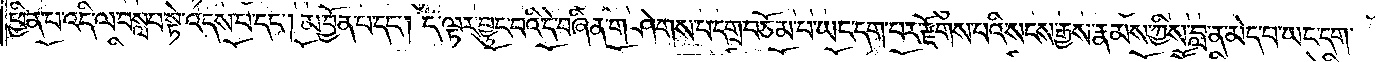ཕྱིན་པ་འདི་ལ་བསླབ་སྟེ་འདས་པ་དང༌། མ་བྱོན་པ་དང༌། ད་ལྟར་བྱུང་བའི་དེ་བཞིན་གཤེགས་པ་དགྲ་བཅོམ་པ་ཡང་དག་པར་རྫོགས་པའི་སངས་རྒྱས་རྣམས་ཀྱིས་བླ་ན་མེད་པ་ཡང་དག་
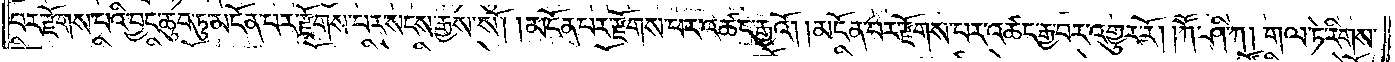པར་རྫོགས་པའི་བྱང་ཆུབ་ཏུ་མངོན་པར་རྫོགས་པར་སངས་རྒྱས་སོ། །མངོན་པར་རྫོགས་པར་འཚང་རྒྱའོ། །མངོན་པར་རྫོགས་པར་འཚང་རྒྱ་བར་འགྱུར་རོ། །ཀཽ་ཤི་ཀ། གལ་ཏེ་རིགས་
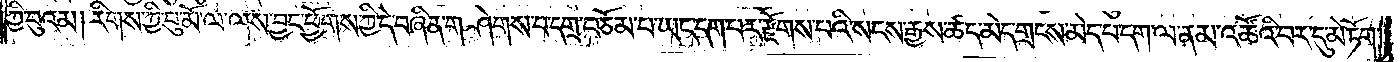ཀྱི་བུའམ། རིགས་ཀྱི་བུ་མོ་ལ་ལས་བྱང་ཕྱོགས་ཀྱི་དེ་བཞིན་གཤེགས་པ་དགྲ་བཅོམ་པ་ཡང་དག་པར་རྫོགས་པའི་སངས་རྒྱས་ཚད་མེད་གྲངས་མེད་པ་དག་ལ་ནམ་འཚོའི་བར་དུ་མེ་ཏོག་
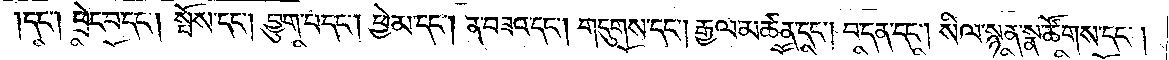དང༌། ཕྲེང་བ་དང༌། སྤོས་དང༌། བྱུག་པ་དང༌། ཕྱེ་མ་དང༌། ན་བཟའ་དང༌། གདུགས་དང༌། རྒྱལ་མཚན་དང༌། བ་དན་དང༌། སིལ་སྙན་སྣ་ཚོགས་དང༌།
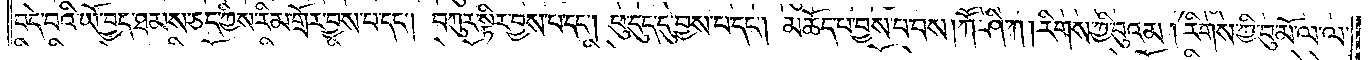བདེ་བའི་ཡོ་བྱད་ཐམས་ཅད་ཀྱིས་རིམ་གྲོར་བྱས་པ་དང༌། བཀུར་སྟིར་བྱས་པ་དང༌། ཕུ་དུད་དུ་བྱས་པ་དང༌། མཆོད་པ་བྱས་པ་བས། ཀཽ་ཤི་ཀ། རིགས་ཀྱི་བུའམ། རིགས་ཀྱི་བུ་མོ་ལ་ལ་
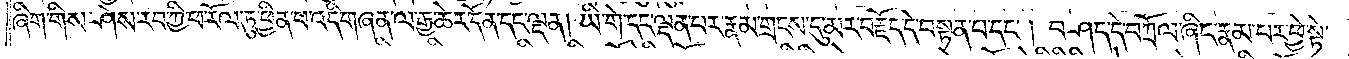ཞིག་གིས་ཤེས་རབ་ཀྱི་ཕ་རོལ་ཏུ་ཕྱིན་པ་འདི་གཞན་ལ་རྒྱ་ཆེར་དོན་དང་ལྡན། ཡི་གེ་དང་ལྡན་པར་རྣམ་གྲངས་དུ་མར་བརྗོད་དེ་བསྟན་པ་དང༌། བཤད་དེ་བཀྲོལ་ཞིང་རྣམ་པར་ཕྱེ་སྟེ་
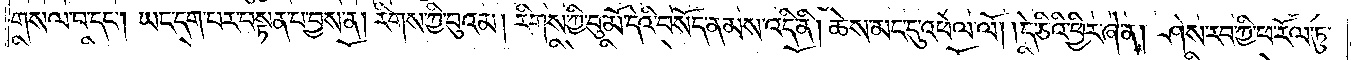གསལ་བ་དང༌། ཡང་དག་པར་བསྟན་པ་བྱས་ན། རིགས་ཀྱི་བུའམ། རིགས་ཀྱི་བུ་མོ་དེའི་བསོད་ནམས་འདི་ནི། ཆེས་མང་དུ་འཕེལ་ལོ། །དེ་ཅིའི་ཕྱིར་ཞེ་ན། ཤེས་རབ་ཀྱི་ཕ་རོལ་ཏུ་
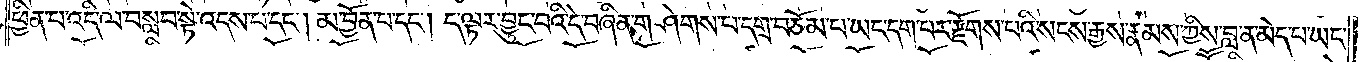ཕྱིན་པ་འདི་ལ་བསླབ་སྟེ་འདས་པ་དང༌། མ་བྱོན་པ་དང༌། ད་ལྟར་བྱུང་བའི་དེ་བཞིན་གཤེགས་པ་དགྲ་བཅོམ་པ་ཡང་དག་པར་རྫོགས་པའི་སངས་རྒྱས་རྣམས་ཀྱིས་བླ་ན་མེད་པ་ཡང་
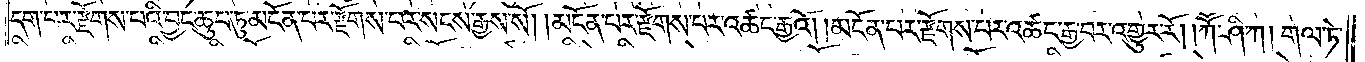དག་པར་རྫོགས་པའི་བྱང་ཆུབ་ཏུ་མངོན་པར་རྫོགས་པར་སངས་རྒྱས་སོ། །མངོན་པར་རྫོགས་པར་འཚང་རྒྱའོ། །མངོན་པར་རྫོགས་པར་འཚང་རྒྱ་བར་འགྱུར་རོ། །ཀཽ་ཤི་ཀ། གལ་ཏེ་
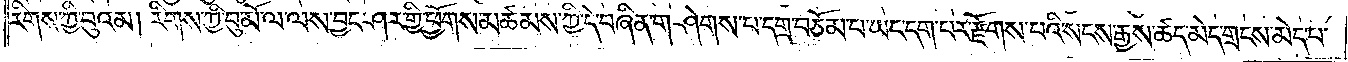རིགས་ཀྱི་བུའམ། རིགས་ཀྱི་བུ་མོ་ལ་ལས་བྱང་ཤར་གྱི་ཕྱོགས་མཚམས་ཀྱི་དེ་བཞིན་གཤེགས་པ་དགྲ་བཅོམ་པ་ཡང་དག་པར་རྫོགས་པའི་སངས་རྒྱས་ཚད་མེད་གྲངས་མེད་པ་
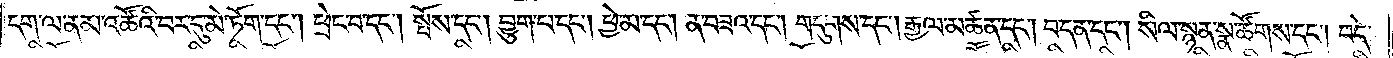དག་ལ་ནམ་འཚོའི་བར་དུ་མེ་ཏོག་དང༌། ཕྲེང་བ་དང༌། སྤོས་དང༌། བྱུག་པ་དང༌། ཕྱེ་མ་དང༌། ན་བཟའ་དང༌། གདུགས་དང༌། རྒྱལ་མཚན་དང༌། བ་དན་དང༌། སིལ་སྙན་སྣ་ཚོགས་དང༌། བདེ་
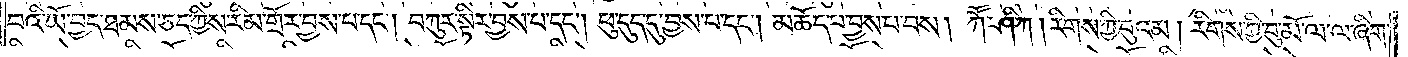བའི་ཡོ་བྱད་ཐམས་ཅད་ཀྱིས་རིམ་གྲོར་བྱས་པ་དང༌། བཀུར་སྟིར་བྱས་པ་དང༌། ཕུ་དུད་དུ་བྱས་པ་དང༌། མཆོད་པ་བྱས་པ་པས། །ཀཽ་ཤི་ཀ། རིགས་ཀྱི་བུའམ། རིགས་ཀྱི་བུ་མོ་ལ་ལ་ཞིག་
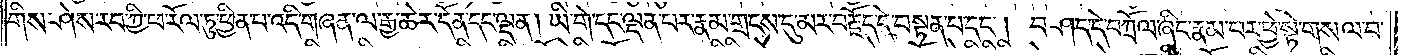གིས་ཤེས་རབ་ཀྱི་ཕ་རོལ་ཏུ་ཕྱིན་པ་འདི་གཞན་ལ་རྒྱ་ཆེར་དོན་དང་ལྡན། ཡི་གེ་དང་ལྡན་པར་རྣམ་གྲངས་དུ་མར་བརྗོད་དེ་བསྟན་པ་དང༌། བཤད་དེ་བཀྲོལ་ཞིང་རྣམ་པར་ཕྱེ་སྟེ་གསལ་བ་
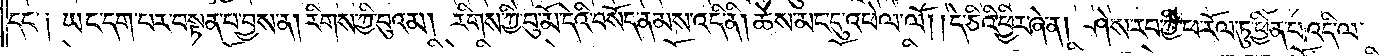དང་༑ ཡང་དག་པར་བསྟན་པ་བྱས་ན། རིགས་ཀྱི་བུའམ། རིགས་ཀྱི་བུ་མོ་དེའི་བསོད་ནམས་འདི་ནི། ཆེས་མང་དུ་འཕེལ་ལོ། །དེ་ཅིའི་ཕྱིར་ཞེ་ན། ཤེས་རབ་ཀྱི་ཕ་རོལ་ཏུ་ཕྱིན་པ་འདི་ལ་
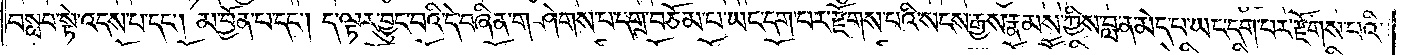བསླབ་སྟེ་འདས་པ་དང༌། མ་བྱོན་པ་དང༌། ད་ལྟར་བྱུང་བའི་དེ་བཞིན་གཤེགས་པ་དགྲ་བཅོམ་པ་ཡང་དག་པར་རྫོགས་པའི་སངས་རྒྱས་རྣམས་ཀྱིས་བླ་ན་མེད་པ་ཡང་དག་པར་རྫོགས་པའི་
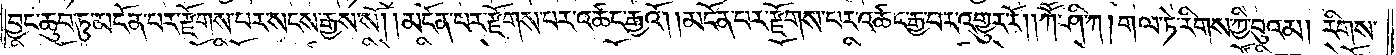བྱང་ཆུབ་ཏུ་མངོན་པར་རྫོགས་པར་སངས་རྒྱས་སོ། །མངོན་པར་རྫོགས་པར་འཚང་རྒྱའོ། །མངོན་པར་རྫོགས་པར་འཚང་རྒྱ་བར་འགྱུར་རོ། །ཀཽ་ཤི་ཀ། གལ་ཏེ་རིགས་ཀྱི་བུའམ། རིགས་
